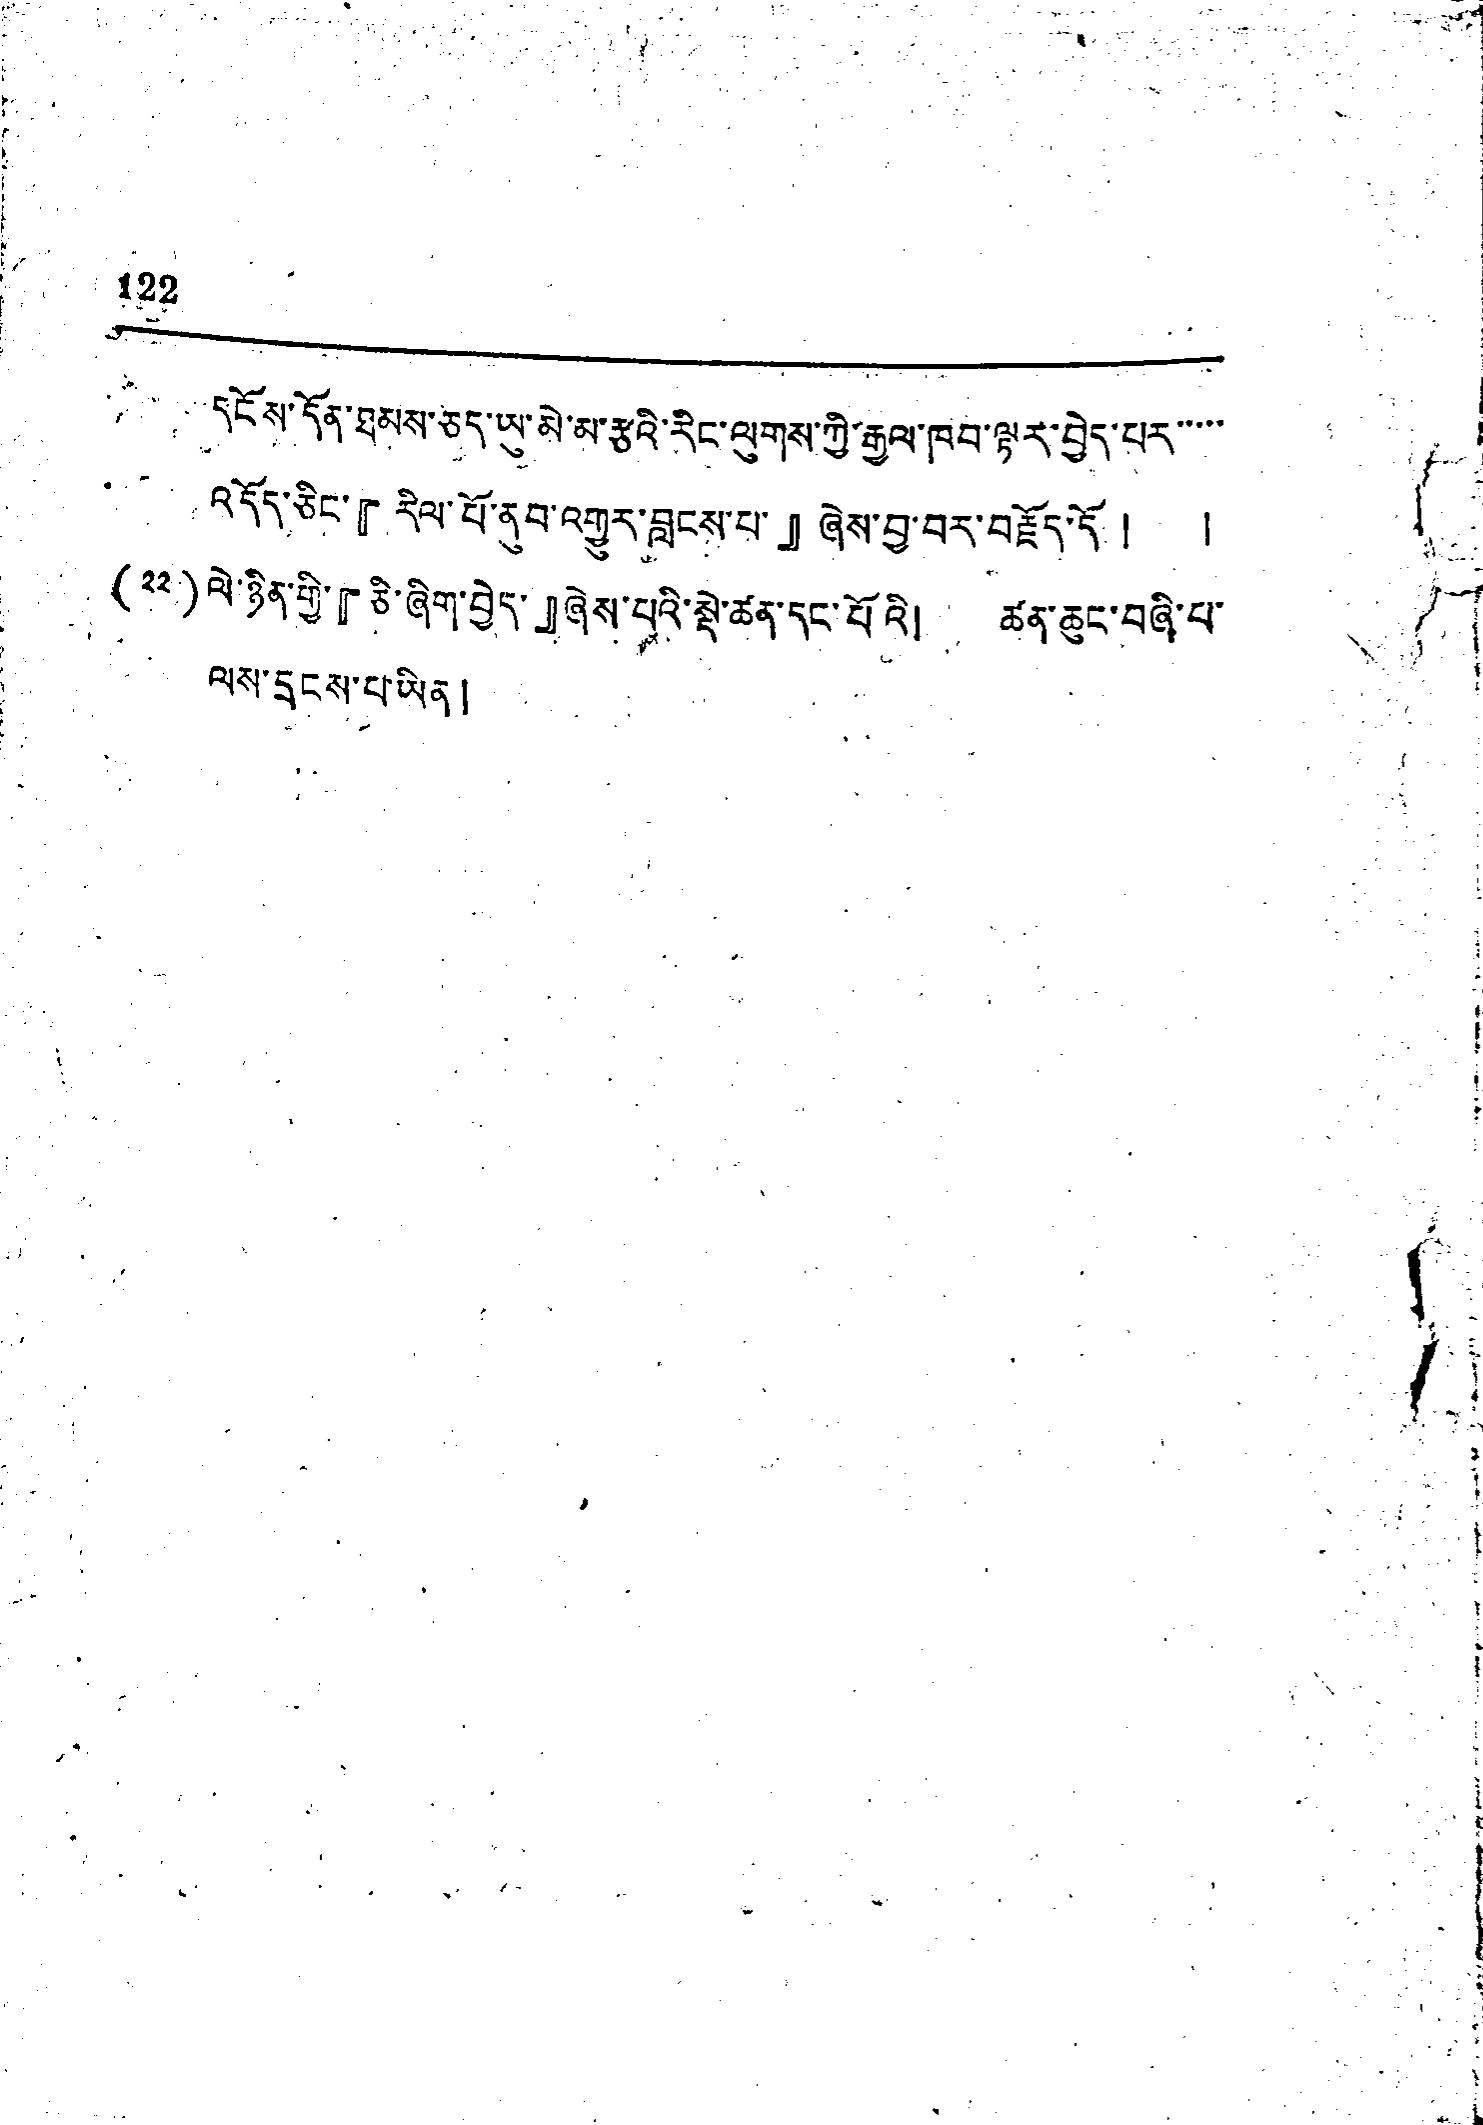122
དངོས་དོན་ཐམས་ཅད་ཡུ་མེ་མ་རྩའི་རིང་ལུགས་ཀྱི་རྒྱལ་ཁབ་ལྟར་བྱེད་པར་་་་་
འདོད་ཅིང་『རིལ་པོ་ནུབ་འགྱུར་བླངས་པ་』ཞེས་བྱ་བར་བརྗོད་དོ། །
(༢༢)ལེ་ཉིན་གྱི་『ཅི་ཞིག་བྱེད་』ཞེས་པའི་སྡེ་ཚན་དང་པོའི། ཚན་ཆུང་བཞི་པ་
ལས་དྲངས་པ་ཡིན།
